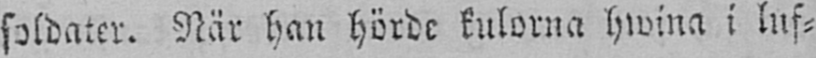soldater. När han hörde kulorna hwina i luf-
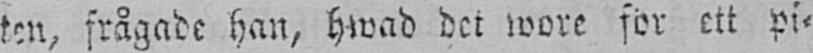ten, frågade han, hwad det wore för ett pi-
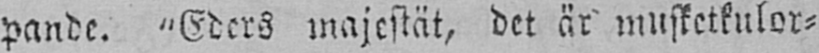pande. "Eders majestät, det är musketkulor-
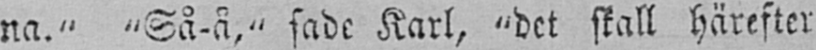na." "Så-å," sade Karl, "det skall härefter
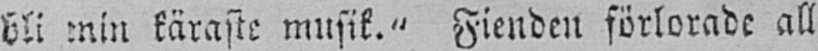bli min käraste musik." Fienden förlorade all
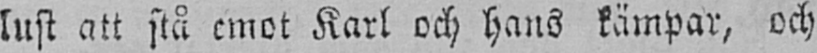lust att stå emot Karl och hans kämpar, och
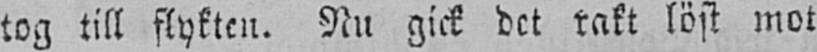tog till flykten. Nu gick det rakt löst mot
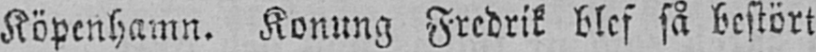Köpenhamn. Konung Fredrik blef så bestört
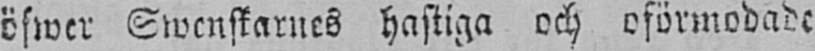öfwer Swenskarnes hastiga och oförmodade
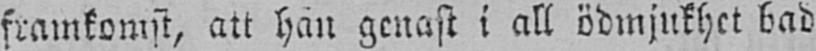framkomst, att han genast i all ödmjukhet bad
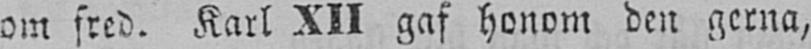om fred. Karl XII gaf honom den gerna,
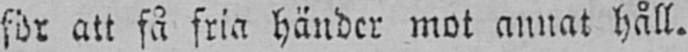för att få fria händer mot annat håll.
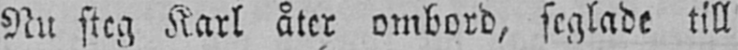Nu steg Karl åter ombord, seglade till
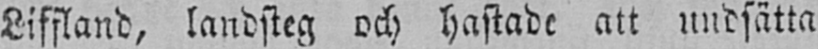Liffland, landsteg och hastade att undsätta
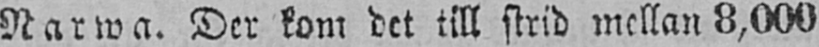Narwa. Der kom det till strid mellan 8,000
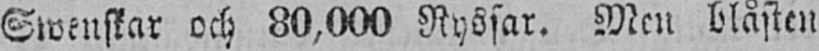Swenskar och 80,000 Ryssar. Men blåsten
